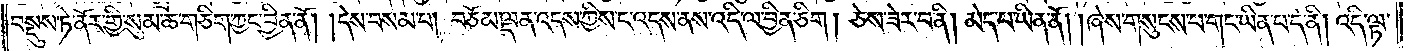བསྡུས་ཏེ་ནོར་གྱི་སུམ་ཆ་གཅིག་ཀྱང་བྱིན་ནོ། །དེས་བསམ་པ། བཅོམ་ལྡན་འདས་ཀྱིས་ང་འདས་ནས་འདི་ལ་བྱིན་ཅིག། ཅེས་ཟེར་བ་ནི། མེད་པ་ཡིན་ནོ། །ཞེས་གསུངས་པ་གང་ཡིན་པ་དེ་ནི། འདི་ལྟ་
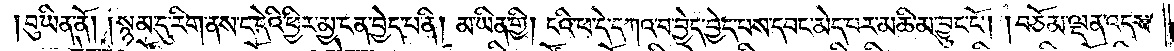བུ་ཡིན་ནོ། །སྙམ་དུ་རིག་ནས་ང་དེའི་ཕྱིར་མྱ་ངན་བྱེད་པ་ནི། མ་ཡིན་གྱི། ངའི་ཕ་དེ་དཀའ་བ་བྱེད་བྱེད་པས་དབང་མེད་པར་མཆི་མ་བྱུང་ངོ༌། །བཅོམ་ལྡན་འདས་
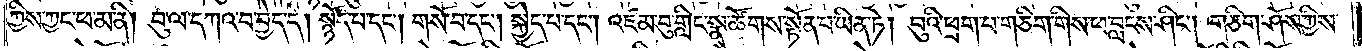ཀྱིས་ཀྱང་ཕ་མ་ནི། བུ་ལ་དཀའ་བ་བྱེད་དེ། སྙོད་པ་དང༌། གསོ་བ་དང༌། སྐྱེད་པ་དང༌། འཛམ་བུ་གླིང་སྣ་ཚོགས་སྟོན་པ་ཡིན་ཏེ། བུའི་ཕྲག་པ་གཅིག་གིས་ཕ་བླངས་ཤིང༌། གཅིག་ཤོས་ཀྱིས་
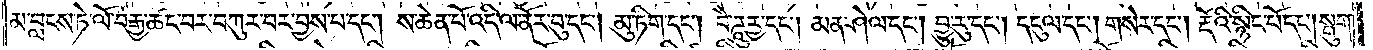མ་བླངས་ཏེ་ལོ་བརྒྱ་ཚང་བར་བཀུར་བར་བྱས་པ་དང༌། ས་ཆེན་པོ་འདི་ལ་ནོར་བུ་དང༌། མུ་ཏིག་དང༌། བཻཌཱུཪྻ་དང༌། མན་ཤེལ་དང༌། བྱུ་རུ་དང༌། དངུལ་དང༌། གསེར་དང༌། རྡོའི་སྙིང་པོ་དང༌། སྤུག་
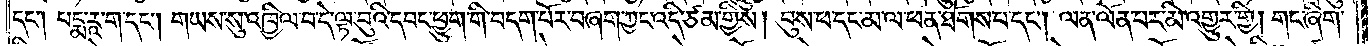དང༌། པདྨ་རཱ་ག་དང༌། གཡས་སུ་འཁྱིལ་བ་དེ་ལྟ་བུའི་དབང་ཕྱུག་གི་བདག་པོར་བཞག་ཀྱང་འདི་ཙམ་གྱིས། བུས་ཕ་དང་མ་ལ་ཕན་ཐོགས་པ་དང༌། ལན་ལོན་པར་མི་འགྱུར་གྱི། གང་ཞིག་
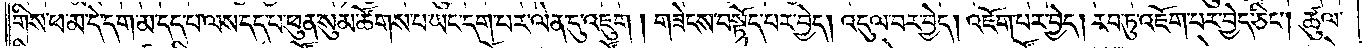གིས་ཕ་མ་དེ་དག་མ་དད་པ་ལས་དད་པ་ཕུན་སུམ་ཚོགས་པ་ཡང་དག་པར་ལེན་དུ་འཇུག། གཟེངས་བསྟོད་པར་བྱེད། འདུལ་བར་བྱེད། འཇོག་པར་བྱེད། རབ་ཏུ་འཇོག་པར་བྱེད་ཅིང༌། ཚུལ་
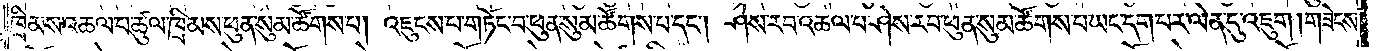ཁྲིམས་འཆལ་པ་ཚུལ་ཁྲིམས་ཕུན་སུམ་ཚོགས་པ། འཇུངས་པ་གཏོང་བ་ཕུན་སུམ་ཚོགས་པ་དང༌། ཤེས་རབ་འཆལ་པ་ཤེས་རབ་ཕུན་སུམ་ཚོགས་པ་ཡང་དག་པར་ལེན་དུ་འཇུག། གཟེངས་
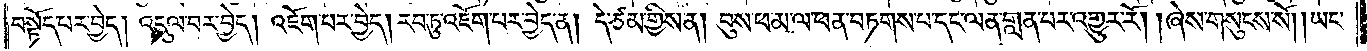བསྟོད་པར་བྱེད། འདུལ་བར་བྱེད། འཇོག་པར་བྱེད། རབ་ཏུ་འཇོག་པར་བྱེད་ན། དེ་ཙམ་གྱིས་ན། བུས་ཕ་མ་ལ་ཕན་བཏགས་པ་དང་ལན་གླན་པར་འགྱུར་རོ། །ཞེས་གསུངས་སོ། །ཡང་
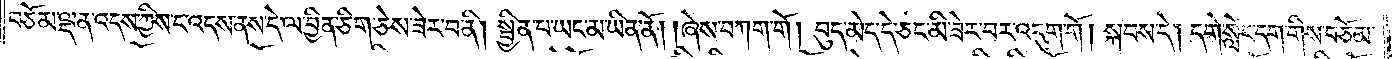བཅོམ་ལྡན་འདས་ཀྱིས་ང་འདས་ནས་དེ་ལ་བྱིན་ཅིག་ཅེས་ཟེར་བ་ནི། སྦྱིན་པ་ཡང་མ་ཡིན་ནོ། །ཞེས་བཀག་གོ །བུད་མེད་དེ་ཅང་མི་ཟེར་བར་འདུག་གོ། སྐབས་དེ། དགེ་སློང་དག་གིས་བཅོམ་
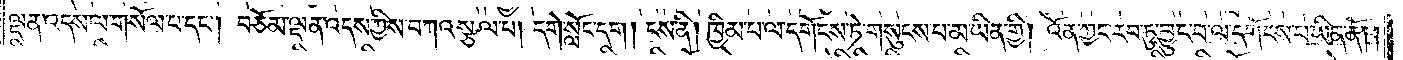ལྡན་འདས་ལ་གསོལ་པ་དང༌། བཅོམ་ལྡན་འདས་ཀྱིས་བཀའ་སྩལ་པ། དགེ་སློང་དག། ངས་ནི། ཁྱིམ་པ་ལ་དགོངས་ཏེ་གསུངས་པ་མ་ཡིན་གྱི། འོན་ཀྱང་རབ་ཏུ་བྱུང་བ་ལ་དགོངས་པ་ཡིན་ནོ། །
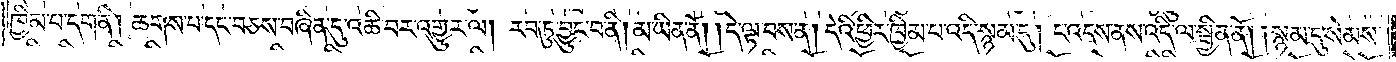ཁྱིམ་པ་དག་ནི། ཆགས་པ་དང་བཅས་བཞིན་དུ་འཆི་བར་འགྱུར་ལ། རབ་ཏུ་བྱུང་བ་ནི། མ་ཡིན་ནོ། །དེ་ལྟ་བས་ན། དེའི་ཕྱིར་ཁྱིམ་པ་འདི་སྙམ་དུ། ང་འདས་ནས་འདི་ལ་སྦྱིན་ནོ། །སྙམ་དུ་སེམས་
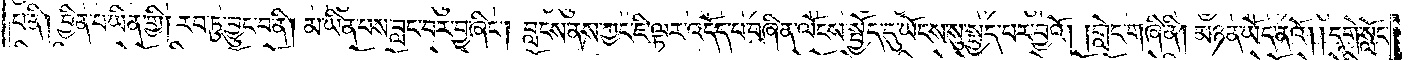པ་ནི། བྱིན་པ་ཡིན་གྱི། རབ་ཏུ་བྱུང་བ་ནི། མ་ཡིན་པས་བླང་བར་བྱ་ཞིང༌། བླངས་ནས་ཀྱང་ཇི་ལྟར་འདོད་པ་བཞིན་ལོངས་སྤྱོད་དུ་ཡོངས་སུ་སྤྱད་པར་བྱའོ། །གླེང་གཞི་ནི། མཉན་ཡོད་ནའོ། །དགེ་སློང་
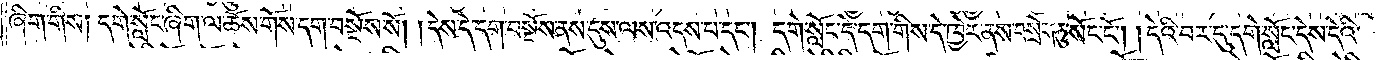ཞིག་གིས། དགེ་སློང་ཞིག་ལ་ཆོས་གོས་དག་བསྔོས་སོ། །དེས་དེ་དག་བསྔོས་ནས་དུས་ལས་འདས་པ་དང༌། དགེ་སློང་དེ་དག་གིས་དེ་ཁྱེར་ནས་བསྲེག་ཏུ་སོང་ངོ༌། །དེའི་བར་དུ་དགེ་སློང་དེས་དེའི་
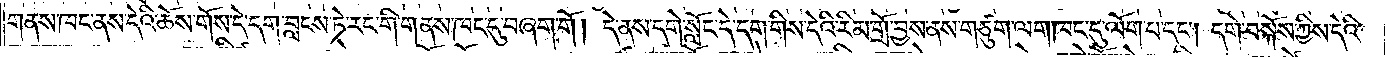གནས་ཁང་ནས་དེའི་ཆོས་གོས་དེ་དག་བླངས་ཏེ་རང་གི་གནས་ཁང་དུ་བཞག་གོ། དེ་ནས་དགེ་སློང་དེ་དག་གིས་དེའི་རིམ་གྲོ་བྱས་ནས་གཙུག་ལག་ཁང་དུ་ལོག་པ་དང༌། དགེ་བསྐོས་ཀྱིས་དེའི་
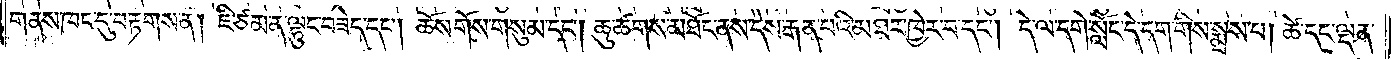གནས་ཁང་དུ་བརྟགས་ན། ཇི་ཙམ་ན་ལྷུང་བཟེད་དང༌། ཆོས་གོས་གསུམ་དང༌། ཆུ་ཚགས་མཐོང་ནས་དེས་རྒན་པའི་མཐར་ཁྱེར་བ་དང༌། དེ་ལ་དགེ་སློང་དེ་དག་གིས་སྨྲས་པ། ཚེ་དང་ལྡན་
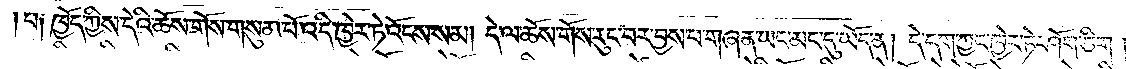པ༑ ཁྱོད་ཀྱིས་དེའི་ཆོས་གོས་གསུམ་པོ་འདི་ཁྱེར་ཏེ་འོངས་སམ། དེ་ལ་ཆོས་གོས་རུང་བར་བྱས་པ་གཞན་ཡང་མང་དུ་ཡོད་ན། དེ་དག་ཀྱང་ཁྱེར་ཏེ་ཤོག་ཅིག །
